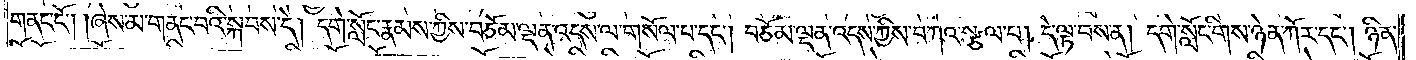གནང་ངོ༌། །ཞེས་མ་གནང་བའི་སྐབས་དེ། དགེ་སློང་རྣམས་ཀྱིས་བཅོམ་ལྡན་འདས་ལ་གསོལ་བ་དང༌། བཅོམ་ལྡན་འདས་ཀྱིས་བཀའ་སྩལ་པ། དེ་ལྟ་བས་ན། དགེ་སློང་གིས་ཉེན་ཀོར་དང༌། ཉིན་
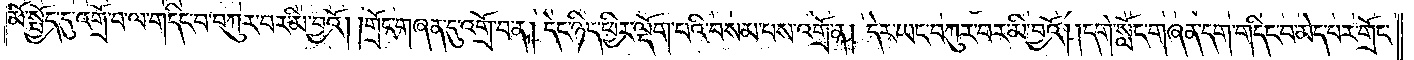མོ་སྤྱོད་དུ་འགྲོ་བ་ལ་གདིང་བ་བཀུར་བར་མི་བྱའོ། །གྲོང་གཞན་དུ་འགྲོ་བ་ན། དེང་ཉིད་ཕྱིར་ལྡོག་པའི་བསམ་པས་འགྲོ་ན། དེར་ཡང་བཀུར་བར་མི་བྱའོ། །དགེ་སློང་གཞན་དག་གདིང་བ་མེད་པར་གྲོང་
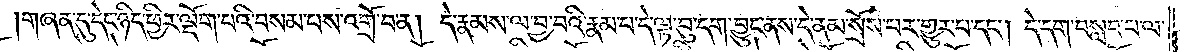གཞན་དུ་དེང་ཉིད་ཕྱིར་ལྡོག་པའི་བསམ་པས་འགྲོ་བ་ན། དེ་རྣམས་ལ་བྱ་བའི་རྣམ་པ་དེ་ལྟ་བུ་དག་བྱུང་ནས་དེ་ནམ་སྲོས་པར་གྱུར་པ་དང༌། དེ་དག་བསླབ་པ་ལ་
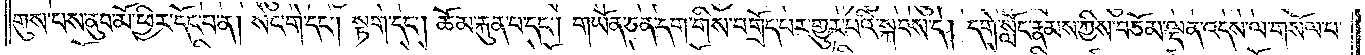གུས་པས་ནུབ་མོ་ཕྱིར་དོང་བ་ན། སེང་གེ་དང༌། སྟག་དང༌། ཆོམ་རྐུན་པ་དང༌། གཡོན་ཅན་དག་གིས་བགྲོད་པར་གྱུར་པའི་སྐབས་དེ། དགེ་སློང་རྣམས་ཀྱིས་བཅོམ་ལྡན་འདས་ལ་གསོལ་བ་
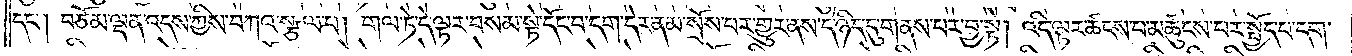དང༌། བཅོམ་ལྡན་འདས་ཀྱིས་བཀའ་སྩལ་པ། གལ་ཏེ་དེ་ལྟར་བསམ་སྟེ་དོང་བ་དག་དེར་ནམ་སྲོས་པར་གྱུར་ནས་དེ་ཉིད་དུ་གནས་པར་བྱ་སྟེ། འདི་ལྟར་ཚངས་པར་མཚུངས་པར་སྤྱོད་པ་དག་
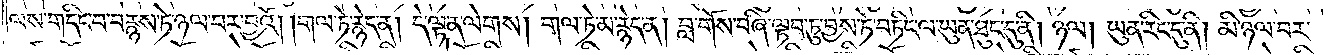ལས་གདིང་བ་བརྙས་ཏེ་ཉལ་བར་བྱའོ། །གལ་ཏེ་རྙེད་ན། དེ་ལྟ་ན་ལེགས། གལ་ཏེ་མ་རྙེད་ན། བླ་གོས་བཞི་ལྟབ་ཏུ་བྱས་ཏེ་བཏིང་ལ་ཡུན་ཐུང་དུ་ནི། ཉལ། ཡུན་རིང་དུ་ནི། མི་ཉལ་བར་
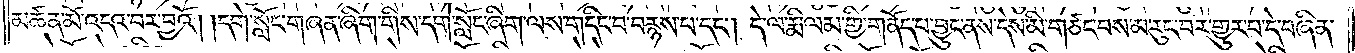མཚན་མོ་འདའ་བར་བྱའོ། །དགེ་སློང་གཞན་ཞིག་གིས་དགེ་སློང་ཞིག་ལས་གདིང་བ་བརྙས་པ་དང༌། དེ་ལ་རྨི་ལམ་གྱི་གནོད་པ་བྱུང་ནས་དེས་མི་གཙང་བས་མ་རུང་བར་གྱུར་པ་དེ་བཞིན་
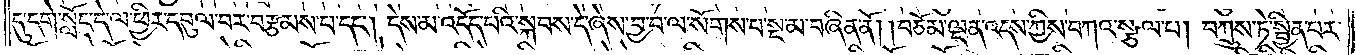དུ་དགེ་སློང་དེ་ལ་ཕྱིར་དབུལ་བར་བརྩམས་པ་དང༌། དེས་མ་འདོད་པའི་སྐབས་དེ་ཞེས་བྱ་བ་ལ་སོགས་པ་སྔ་མ་བཞིན་ནོ། །བཅོམ་ལྡན་འདས་ཀྱིས་བཀའ་སྩལ་པ། བཀྲུས་ཏེ་སྦྱིན་པར་
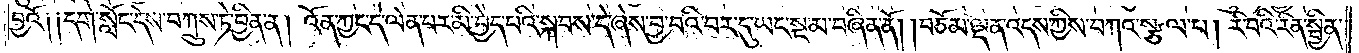བྱའོ༑ ༑དགེ་སློང་དེས་བཀྲུས་ཏེ་བྱིན་ན། འོན་ཀྱང་དེ་ལེན་པར་མི་བྱེད་པའི་སྐབས་དེ་ཞེས་བྱ་བའི་བར་དུ་ཡང་སྔ་མ་བཞིན་ནོ། །བཅོམ་ལྡན་འདས་ཀྱིས་བཀའ་སྩལ་པ། རི་བའི་རིན་སྦྱིན་
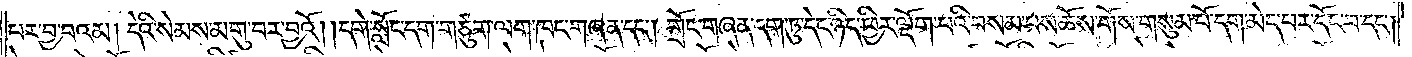པར་བྱ་བའམ། དེའི་སེམས་མགུ་བར་བྱའོ། །དགེ་སློང་དག་གཙུག་ལག་ཁང་གཞན་དང༌། གྲོང་གཞན་དག་ཏུ་དེང་ཉིད་ཕྱིར་ལྡོག་པའི་བསམ་པས་ཆོས་གོས་གསུམ་པོ་དག་མེད་པར་དོང་བ་དང༌།
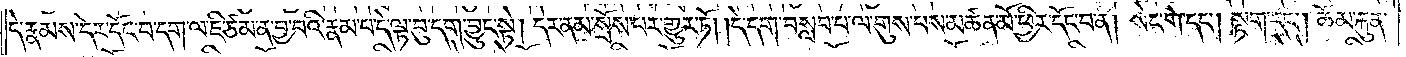དེ་རྣམས་དེར་དོང་བ་དག་ལ་ཇི་ཙམ་ན་བྱ་བའི་རྣམ་པ་དེ་ལྟ་བུ་དག་བྱུང་སྟེ། དེར་ནམ་སྲོས་པར་གྱུར་ཏོ། །དེ་དག་བསླབ་པ་ལ་གུས་པས་མཚན་མོ་ཕྱིར་དོང་བ་ན། སེང་གེ་དང༌། སྟག་དང༌། ཆོམ་རྐུན་
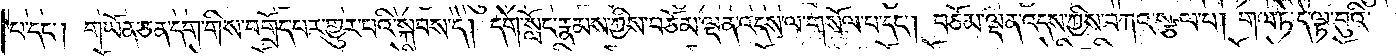པ་དང༌། གཡོན་ཅན་དག་གིས་བགྲོད་པར་གྱུར་པའི་སྐབས་དེ། དགེ་སློང་རྣམས་ཀྱིས་བཅོམ་ལྡན་འདས་ལ་གསོལ་བ་དང༌། བཅོམ་ལྡན་འདས་ཀྱིས་བཀའ་སྩལ་པ། གལ་ཏེ་དེ་ལྟ་བུའི་
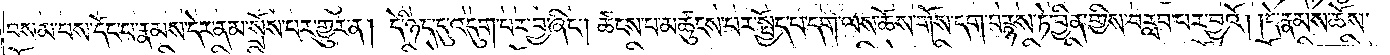བསམ་པས་དོང་པ་རྣམས་དེར་ནམ་སྲོས་པར་གྱུར་ན། དེ་ཉིད་དུ་འདུག་པར་བྱ་ཞིང༌། ཚངས་པ་མཚུངས་པར་སྤྱོད་པ་དག་ལས་ཆོས་གོས་དག་བརྙས་ཏེ་བྱིན་གྱིས་བརླབ་པར་བྱའོ། །དེ་རྣམས་ཆོས་
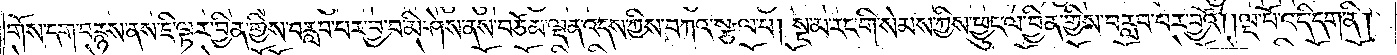གོས་དག་བརྙས་ནས་ཇི་ལྟར་བྱིན་གྱིས་བརླབ་པར་བྱ་བ་མི་ཤེས་ནས་བཅོམ་ལྡན་འདས་ཀྱིས་བཀའ་སྩལ་པ། སྔ་མ་རང་གི་སེམས་ཀྱིས་ཕྱུང་ལ་བྱིན་གྱིས་བརླབ་པར་བྱའོ། །ལྔ་པོ་འདི་དག་ནི།
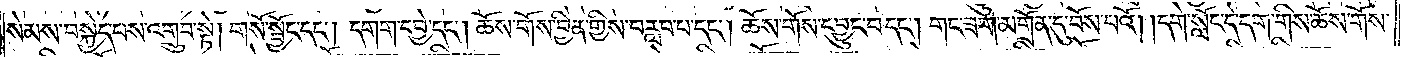སེམས་བསྐྱེད་པས་འགྲུབ་སྟེ། གསོ་སྦྱོང་དང༌། དགག་དབྱེ་དང༌། ཆོས་གོས་བྱིན་གྱིས་བརླབ་པ་དང༌། ཆོས་གོས་དབྱུང་བ་དང༌། གང་ཟག་མགྲོན་དུ་བོས་པའོ། །དགེ་སློང་དེ་དག་གིས་ཆོས་གོས་
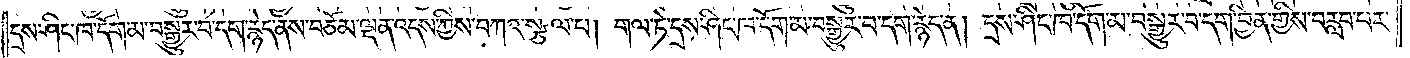དྲས་ཤིང་ཁ་དོག་མ་བསྒྱུར་བ་དག་རྙེད་ནས་བཅོམ་ལྡན་འདས་ཀྱིས་བཀའ་སྩལ་པ། གལ་ཏེ་དྲས་ཤིང་ཁ་དོག་མ་བསྒྱུར་བ་དག་རྙེད་ན། དྲས་ཤིང་ཁ་དོག་མ་བསྒྱུར་བ་དག་བྱིན་གྱིས་བརླབ་པར་
